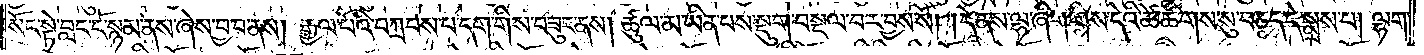སོང་སྟེ་བླང་ངོ་སྙམ་ནས་ཞེས་བྱ་བ་ནས། རྒྱལ་པོའི་བཀྲབས་པ་དག་གིས་བཟུང་ནས། ཚུལ་མ་ཡིན་པས་སྡུག་བསྔལ་བར་བྱས་སོ། །དེ་ནས་ལྷ་ཞིག་གིས་དེའི་ཚེ་ཚིགས་སུ་བཅད་དེ་སྨྲས་པ། ལྷག་
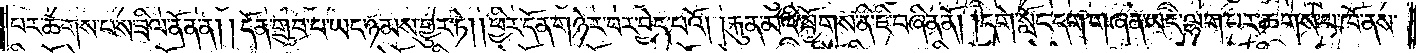པར་ཆགས་པས་ཟིལ་ནོན་ན། །དོན་གྲུབ་པ་ཡང་ཉམས་གྱུར་ཏེ། །ཕྱིར་དོན་གཉེར་བར་བྱེད་པའོ། །རྐུན་མའི་སྐྱོགས་ནེ་ཇི་བཞིན་ནོ། །དགེ་སློང་དག་གཞན་ཡང་ལྷག་པར་ཆགས་པ་ཁོ་ནས་
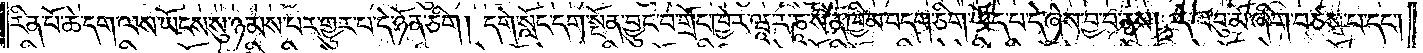རིན་པོ་ཆེ་དག་ལས་ཡོངས་སུ་ཉམས་པར་གྱུར་པ་དེ་ཉོན་ཅིག །དགེ་སློང་དག་སྔོན་བྱུང་བ་གྲོང་ཁྱེར་ཝཱ་ར་ཎཱ་སི་ན་ཁྱིམ་བདག་ཅིག་ཡོད་པ་དེ་ཞེས་བྱ་བ་ནས། དེ་ལ་བུ་མོ་ཞིག་བཙས་པ་དང༌།
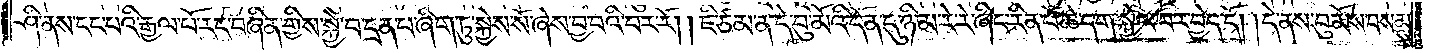ཤི་ནས་ངང་པའི་རྒྱལ་པོ་རང་བཞིན་གྱིས་སྐྱེ་བ་དྲན་པ་ཞིག་ཏུ་སྐྱེས་སོ་ཞེས་བྱ་བའི་བར་རོ། །ཇི་ཙམ་ན་དེ་བུ་མོའི་དོན་དུ་ཉི་མ་རེ་རེ་ཞིང་རིན་པོ་ཆེ་དག་སྐྱེལ་བར་བྱེད་དོ། །དེ་ནས་བུ་མོས་བསམས་
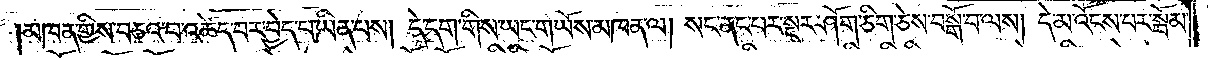མཁན་གྱིས་བཅའ་བ་འཚེད་པར་བྱེད་པ་ཡིན་པས། དེ་དག་གིས་ཡང་གཡོས་མཁན་ལ། སང་ནང་པར་སྔར་ཤོག་ཅིག་ཅེས་བསྒོ་བ་ལས། དེ་མ་འོངས་པར་སྦོམ་
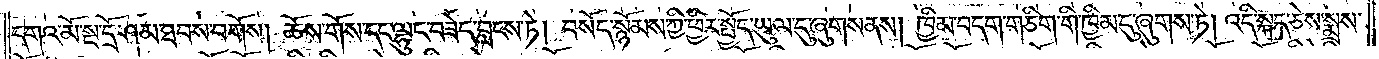དགའ་མོ་སྔ་དྲོ་ཤམ་ཐབས་བགོས། ཆོས་གོས་དང་ལྷུང་བཟེད་བླངས་ཏེ། བསོད་སྙོམས་ཀྱི་ཕྱིར་སྤྱོད་ཡུལ་དུ་ཞུགས་ནས། ཁྱིམ་བདག་གཅིག་གི་ཁྱིམ་དུ་ཞུགས་ཏེ། འདི་སྐད་ཅེས་སྨྲས་
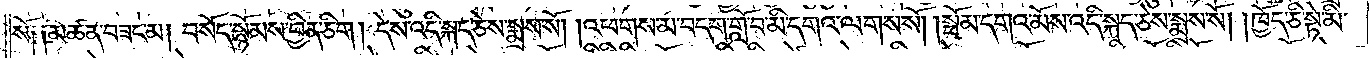སོ༑ ༑མཚན་བཟང་མ། བསོད་སྙོམས་བྱིན་ཅིག །དེས་འདི་སྐད་ཅེས་སྨྲས་སོ། །འཕགས་མ་བདག་གློ་བ་མི་དགའ་ལགས་སོ། །སྦོམ་དགའ་མོས་འདི་སྐད་ཅེས་སྨྲས་སོ། །ཁྱོད་ཅི་སྟེ་མི་
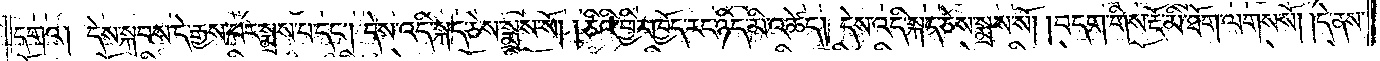དགའ། དེས་སྐབས་དེ་རྒྱས་པར་སྨྲས་པ་དང༌། དེས་འདི་སྐད་ཅེས་སྨྲས་སོ། །ཅིའི་ཕྱིར་ཁྱོད་རང་ཉིད་མི་འཚེད། དེས་འདི་སྐད་ཅེས་སྨྲས་སོ། །བདག་གིས་རྔོ་མི་ཐོག་ལགས་སོ། །དེ་ནས་
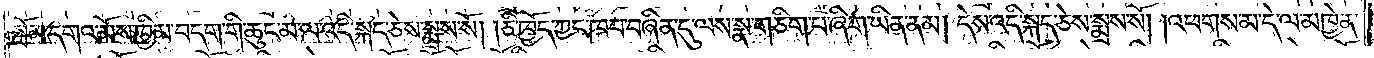སྦོམ་དགའ་མོས་ཁྱིམ་བདག་གི་ཆུང་མ་ལ་འདི་སྐད་ཅེས་སྨྲས་སོ། །ཅི་ཁྱོད་ཀྱང་ཁབ་བཞིན་དུ་ལས་སྣ་གཅིག་པ་ཞིག་ཡིན་ནམ། དེས་འདི་སྐད་ཅེས་སྨྲས་སོ། །འཕགས་མ་དེ་ལ་མཁྱེན་
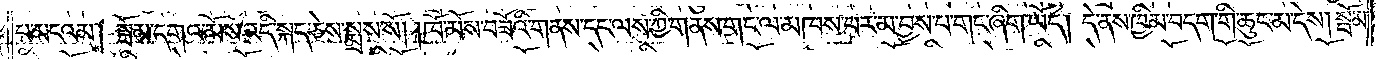པ་མངའམ། སྦོམ་དགའ་མོས་འདི་སྐད་ཅེས་སྨྲས་སོ། །ཁོ་མོས་བཟོའི་གནས་དང་ལས་ཀྱི་གནས་གང་ལ་མཁས་པར་མ་བྱས་པ་གང་ཞིག་ཡོད། དེ་ནས་ཁྱིམ་བདག་གི་ཆུང་མ་དེས། སྦོམ་
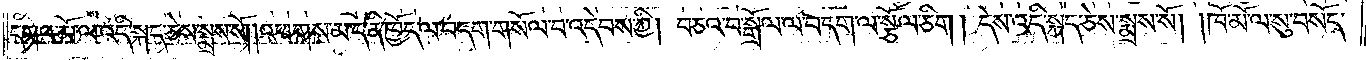དགའ་མོ་ལ་འདི་སྐད་ཅེས་སྨྲས་སོ། །འཕགས་མ་ད་ནི་ཁྱོད་ལ་བདག་གསོལ་བ་འདེབས་ཀྱི། བཅའ་བ་སྒྲོལ་ལ་བདག་ལ་སྩོལ་ཅིག །དེས་འདི་སྐད་ཅེས་སྨྲས་སོ། །ཁོ་མོ་ལ་སུ་བསོད་
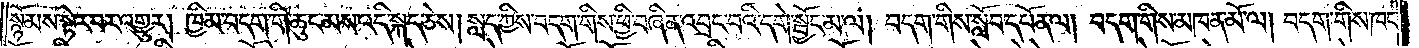སྙོམས་སྟེར་བར་འགྱུར། ཁྱིམ་བདག་གི་ཆུང་མས་འདི་སྐད་ཅེས། སླད་ཀྱིས་བདག་གིས་ཕྱི་བཞིན་འབྲང་བའི་དགེ་སྦྱོང་མ་ལ། བདག་གིས་སློབ་དཔོན་ལ། བདག་གིས་མཁན་མོ་ལ། བདག་གིས་ཁང་
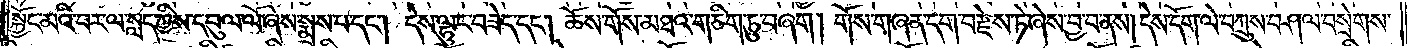སྐྱོང་མའི་བར་ལ་སླད་ཀྱིས་དབུལ་ལོ་ཞེས་སྨྲས་པ་དང༌། དེས་ལྷུང་བཟེད་དང༌། ཆོས་གོས་མཐའ་གཅིག་ཏུ་བཞག །གོས་གཞན་དག་བརྫེས་ཏེ་ཞེས་བྱ་བ་ནས། དེས་དོག་ལེ་བཀྲུས་བཤལ་བསྲེགས་
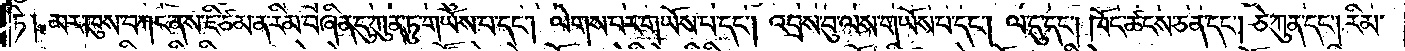ཏེ། མར་ཁུས་བཀང་ནས་ཇི་ཙམ་ན་རིམ་བཞིན་དུ་ཀུན་ཏུ་གཡོས་པ་དང༌། ལེགས་པར་གཡོས་པ་དང༌། འབྲས་བུ་ལས་གཡོས་པ་དང༌། ལ་དུ་དང༌། ཁོང་ཚངས་ཅན་དང༌། ཅེ་ཀུན་དང༌། རིམ་
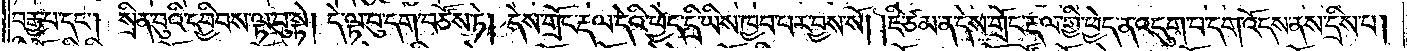བརྒྱ་པ་དང༌། སྲིན་བུའི་དབྱིབས་ལྟ་བུ་སྟེ། དེ་ལྟ་བུ་དག་བཙོས་ཏེ། དེས་གྲོང་རྡལ་དེའི་ཕྱེད་དྲི་ཡིས་ཁྱབ་པར་བྱས་སོ། །ཇི་ཙམ་ན་དེས་གྲོང་རྡལ་གྱི་ཕྱེད་ན་འདུག་པ་དག་འོངས་ནས་དྲིས་པ།
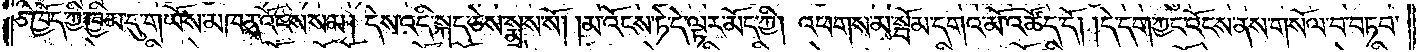ཅི་ཁྱོད་ཀྱི་ཁྱིམ་དུ་གཡོས་མཁན་འོངས་སམ། དེས་འདི་སྐད་ཅེས་སྨྲས་སོ། །མ་འོངས་ཏེ་དེ་ལྟར་མོད་ཀྱི། འཕགས་མ་སྦོམ་དགའ་མོ་འཚོད་དོ། །དེ་དག་ཀྱང་འོངས་ནས་གསོལ་བ་བཏབ་
